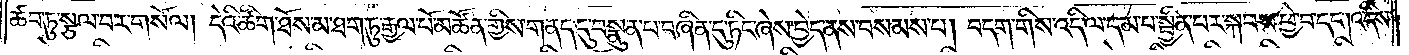ཚབ་ཏུ་སྩལ་བར་གསོལ། དེའི་ཚིག་ཐོས་མ་ཐག་ཏུ་རྒྱལ་པོ་མཚོན་གྱིས་གནད་དུ་བསྣུན་པ་བཞིན་དུ་ཏིང་ཞེས་བྱེད་ནས་བསམས་པ། བདག་གིས་འདི་ལ་དམ་པ་སྦྱིན་པར་སྐབས་ཕྱེ་བ་དང༌། འདིས་
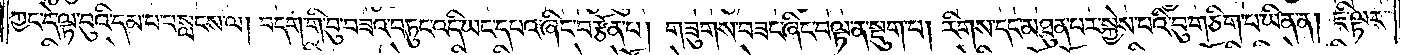ཀྱང་དེ་ལྟ་བུའི་དམ་པ་བསླངས་ལ། བདག་གི་བུ་བཟའ་བཏུང་འདི་ཡང་དཔའ་ཞིང་བརྩོན་པ། གཟུགས་བཟང་ཞིང་བལྟ་ན་སྡུག་པ། རིགས་དང་མཐུན་པར་སྐྱེས་པའི་བུ་གཅིག་པ་ཡིན་ན། ཇི་ལྟར་
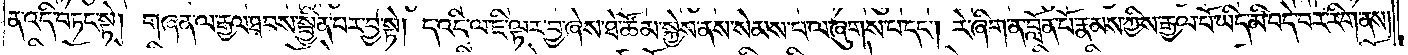ན་འདི་བཏང་སྟེ། གཞན་ལ་རྒྱལ་ཐབས་སྦྱིན་པར་བྱ་སྟེ། ད་འདི་ལ་ཇི་ལྟར་བྱ་ཞེས་ཐེ་ཚོམ་སྐྱེས་ནས་སེམས་པ་ལ་ཞུགས་པ་དང༌། རེ་ཞིག་ན་བློན་པོ་རྣམས་ཀྱིས་རྒྱལ་པོ་ཡིད་མི་བདེ་བར་རིག་ནས།
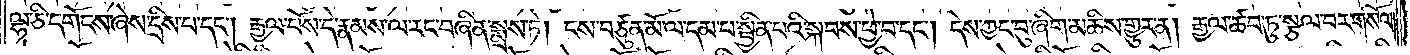ལྷ་ཅི་དགོངས་ཞེས་དྲིས་པ་དང༌། རྒྱལ་པོས་དེ་རྣམས་ལ་རང་བཞིན་སྨྲས་ཏེ། ངས་བཙུན་མོ་ལ་དམ་པ་སྦྱིན་པའི་སྐབས་ཕྱེ་བ་དང༌། དེས་ཀྱང་བུ་ཞིག་མཆིས་གྱུར་ན། རྒྱལ་ཚབ་ཏུ་སྩལ་བར་གསོལ།
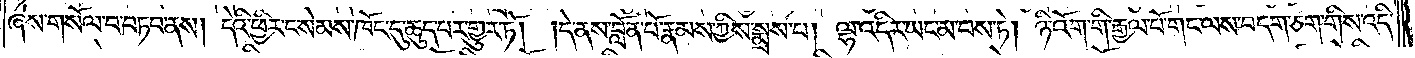ཞེས་གསོལ་བ་བཏབ་ནས། དེའི་ཕྱིར་ང་སེམས་ཁོང་དུ་ཆུད་པར་གྱུར་ཏོ། །དེ་ནས་བློན་པོ་རྣམས་ཀྱིས་སྨྲས་པ། ལྷ་འདིར་ཡང་མ་བས་ཏེ། ཉི་འོག་གི་རྒྱལ་པོ་གང་ལས་བདག་ཅག་གིས་འདི་
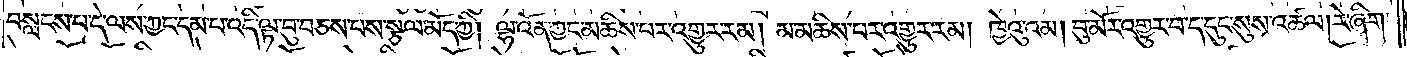བསླངས་པ་དེ་ལས་ཀྱང་དམ་པ་འདི་ལྟ་བུ་བཅས་པས་སྩལ་མོད་ཀྱི། ལྷ་འོན་ཀྱང་མཆིས་པར་འགྱུར་རམ། མ་མཆིས་པར་འགྱུར་རམ། ཁྱེའུ་འམ། བུ་མོར་འགྱུར་བ་ད་དུང་སུས་འཚལ། རེ་ཞིག་
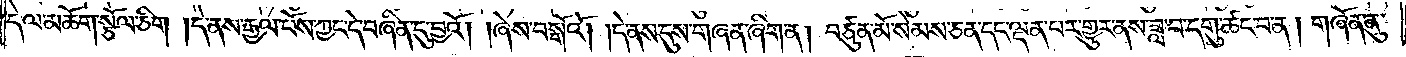དེ་ལ་མཆོག་སྩོལ་ཅིག །དེ་ནས་རྒྱལ་པོས་ཀྱང་དེ་བཞིན་དུ་བྱའོ། །ཞེས་བསྒོའོ། །དེ་ནས་དུས་གཞན་ཞིག་ན། བཙུན་མོ་སེམས་ཅན་དང་ལྡན་པར་གྱུར་ནས་ཟླ་བ་དགུ་ཚང་བ་ན། གཞོན་ནུ་
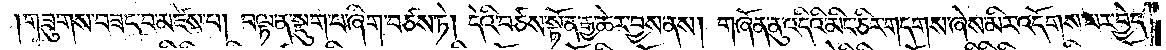གཟུགས་བཟང་བ་མཛེས་པ། བལྟ་ན་སྡུག་པ་ཞིག་བཙས་ཏེ། དེའི་བཙས་སྟོན་རྒྱ་ཆེར་བྱས་ནས། གཞོན་ནུ་འདིའི་མིང་ཅིར་གདགས་ཞེས་མིར་འདོགས་པར་བྱེད་
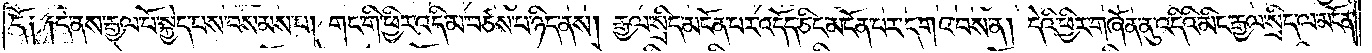དོ། །དེ་ནས་རྒྱལ་པོ་སྐྱེད་པས་བསམས་པ། གང་གི་ཕྱིར་འདི་མ་བཙས་པ་ཉིད་ནས། རྒྱལ་སྲིད་མངོན་པར་འདོད་ཅིང་མངོན་པར་དགའ་བས་ན། དེའི་ཕྱིར་གཞོན་ནུ་འདིའི་མིང་རྒྱལ་སྲིད་ལ་མངོན་
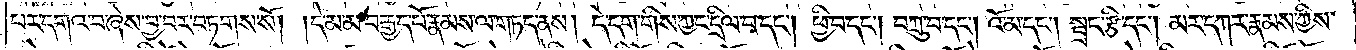པར་དགའ་བ་ཞེས་བྱ་བར་བཏགས་སོ། །དེ་མ་མ་བརྒྱད་པོ་རྣམས་ལ་གཏད་ནས། དེ་དག་གིས་ཀྱང་དྲིལ་བ་དང༌། ཕྱི་བ་དང༌། བཀྲུ་བ་དང༌། འོ་མ་དང༌། སྦྲང་རྩི་དང༌། མར་དཀར་རྣམས་ཀྱིས་
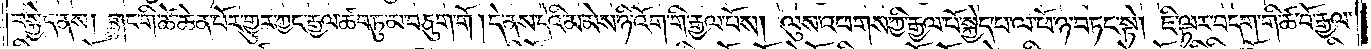བསྐྱེད་ནས། གང་གི་ཚེ་ཆེན་པོར་གྱུར་ཀྱང་རྒྱལ་ཚབ་ཏུ་མ་བཅུག་གོ །དེ་ནས་དེའི་མ་མེས་ཉི་འོག་གི་རྒྱལ་པོས། ལུས་འཕགས་ཀྱི་རྒྱལ་པོ་སྐྱེད་པ་ལ་ཕོ་ཉ་བཏང་སྟེ། ཇི་ལྟར་བདག་གི་ཚ་བོ་རྒྱལ་
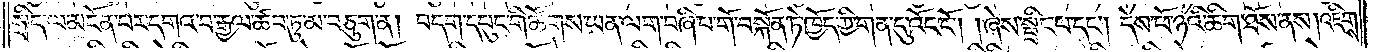སྲིད་ལ་མངོན་པར་དགའ་བ་རྒྱལ་ཚབ་ཏུ་མ་བཅུག་ན། བདག་དཔུང་གི་ཚོགས་ཡན་ལག་བཞི་པ་གོ་བསྐོན་ཏེ་ཁྱོད་ཀྱི་གན་དུ་འོང་ངོ༌། །ཞེས་སྤྲིང་པ་དང༌། དེས་ཕོ་ཉའི་ཆིག་ཐོས་ནས། འཇིགས་
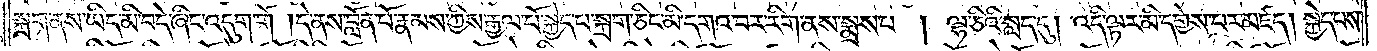སྐྲག་ནས་ཡིད་མི་བདེ་ཞིང་འདུག་གོ །དེ་ནས་བློན་པོ་རྣམས་ཀྱིས་རྒྱལ་པོ་སྐྱེད་པ་སྐྲག་ཅིང་མི་དགའ་བར་རིག་ནས་སྨྲས་པ། ལྷ་ཅིའི་སླད་དུ། འདི་ལྟར་མི་དགྱེས་པར་མཛད། སྐྱེད་པས་
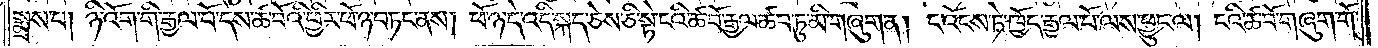སྨྲས་པ། ཉི་འོག་གི་རྒྱལ་པོ་དེས་ཚ་བོའི་ཕྱིར་ཕོ་ཉ་བཏང་ནས། ཕོ་ཉ་དེ་འདི་སྐད་ཅེས་ཅི་སྟེ་ངའི་ཚ་བོ་རྒྱལ་ཚབ་ཏུ་མི་གཞུག་ན། ང་འོངས་ཏེ་ཁྱོད་རྒྱལ་པོ་ལས་ཕྱུང་ལ། ངའི་ཚ་བོ་གཞུག་གོ་
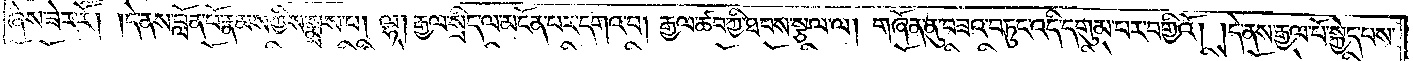ཞེས་ཟེར་རོ། །དེ་ནས་བློན་པོ་རྣམས་ཀྱིས་སྨྲས་པ། ལྷ། རྒྱལ་སྲིད་ལ་མངོན་པར་དགའ་བ། རྒྱལ་ཚབ་ཀྱི་ཐབས་སྩལ་ལ། གཞོན་ནུ་བཟའ་བཏུང་འདི་དགུམ་པར་བགྱིའོ། །དེ་ནས་རྒྱལ་པོ་སྐྱེད་པས་
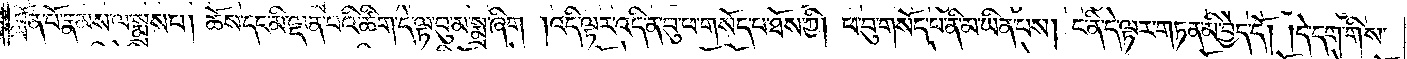བློན་པོ་རྣམས་ལ་སྨྲས་པ། ཆོས་དང་མི་ལྡན་པའི་ཚིག་དེ་ལྟ་བུ་མ་སྨྲ་ཞིག །འདི་ལྟར་འདི་ན་བུ་ཕ་གསོད་པ་ཐོས་ཀྱི། ཕ་བུ་གསོད་པ་ནི་མ་ཡིན་པས། ང་ནི་དེ་ལྟར་གཏན་མི་བྱེད་དོ། །དེ་དག་གིས་
